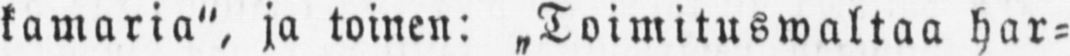kamaria", ja toinen: „Toimituswaltaa har-
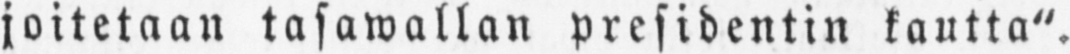joitetaan tasawallan presidentin kautta".
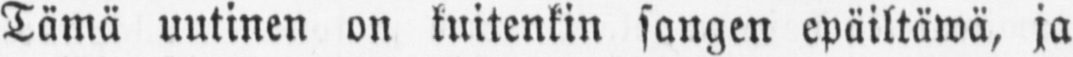Tämä uutinen on kuitenkin sangen epäiltäwä, ja
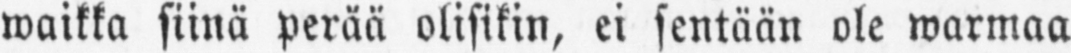waikka siinä perää olisikin, ei sentään ole warmaa
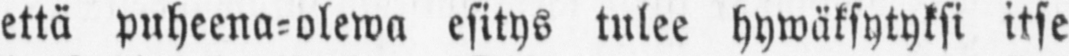että puheena-olewa esitys tulee hywäksytyksi itse
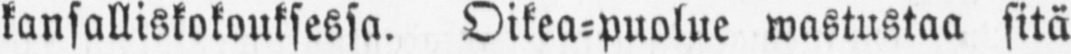kansalliskokouksessa. Oikea-puolue wastustaa sitä
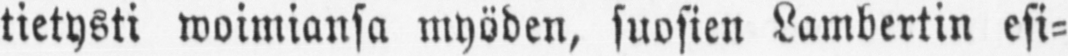tietysti woimiansa myöden, suosien Lambertin esi-
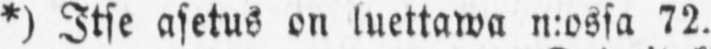*) Itse asetus on luettawa n:ossa 72.
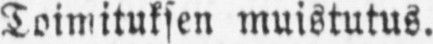Toimituksen muistutus.
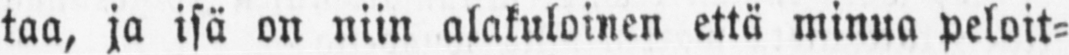taa, ja isä on niin alakuloinen että minua peloit-
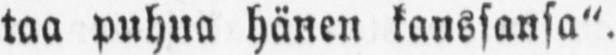taa puhua hänen kanssansa".
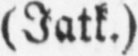(Jatk.)
